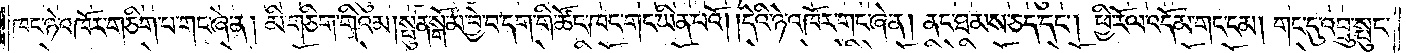ཁང་ཉེ་འཁོར་གཅིག་པ་གང་ཞེ་ན། མི་གཅིག་གིའམ། སྤུན་སྒོ་མ་བྱེ་བ་དག་གི་ཚོང་ཁང་གང་ཡིན་པའོ། །དེའི་ཉེ་འཁོར་གང་ཞེ་ན། ནང་ཐམས་ཅད་དང༌། ཕྱི་རོལ་འདོམ་གང་ངམ། གང་དུ་འབྲུ་སྤུང་
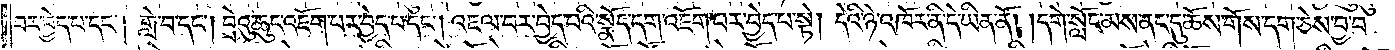བར་བྱེད་པ་དང༌། གླེ་བ་དང༌། བྲེའུ་ཆུང་འཇོག་པར་བྱེད་པ་དང༌། འཇལ་བར་བྱེད་པའི་སྣོད་དག་འཇོག་པར་བྱེད་པ་སྟེ། དེའི་ཉེ་འཁོར་ནི་དེ་ཡིན་ནོ། །དགེ་སློང་མས་ནང་དུ་ཆོས་གོས་དག་ཅེས་བྱ་བ་
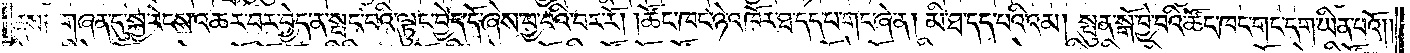ནས༑ གཞན་དུ་སྐྱ་རེངས་འཆར་བར་བྱེད་ན་སྤང་བའི་ལྟུང་བྱེད་དོ་ཞེས་བྱ་བའི་བར་རོ། །ཚོང་ཁང་ཉེ་འཁོར་ཐ་དད་པ་གང་ཞེ་ན། མི་ཐ་དད་པའི་འམ། སྤུན་སྒོ་བྱེ་བའི་ཚོང་ཁང་གང་དག་ཡིན་པའོ། །
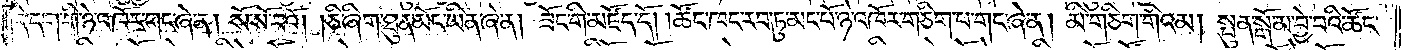དེ་དག་གི་ཉེ་འཁོར་གང་ཞེ་ན། སོ་སོ་བའོ། །ཅི་ཞིག་ཐུན་མོང་ཡིན་ཞེ་ན། ཟོང་གི་མཛོད་དོ། །ཚོང་ཁང་རབ་ཏུ་མང་པོ་ཉེ་འཁོར་གཅིག་པ་གང་ཞེ་ན། མི་གཅིག་གིའམ། སྤུན་སྒོ་མ་བྱེ་བའི་ཚོང་
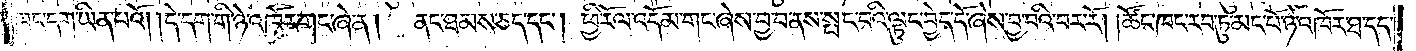ཁང་དག་ཡིན་པའོ། །དེ་དག་གི་ཉེ་འཁོར་གང་ཞེ་ན། ནང་ཐམས་ཅད་དང༌། ཕྱི་རོལ་འདོམ་གང་ཞེས་བྱ་བ་ནས་སྤང་བའི་ལྟུང་བྱེད་དོ་ཞེས་བྱ་བའི་བར་རོ། །ཚོང་ཁང་རབ་ཏུ་མང་པོ་ཉེ་འཁོར་ཐ་དད་
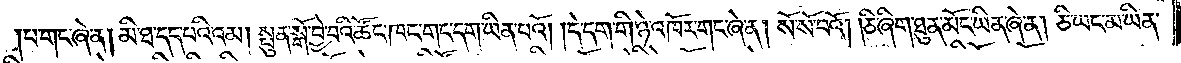པ་གང་ཞེ་ན། མི་ཐ་དད་པའི་འམ། སྤུན་སྒོ་བྱེ་བའི་ཚོང་ཁང་གང་དག་ཡིན་པའོ། །དེ་དག་གི་ཉེ་འཁོར་གང་ཞེ་ན། སོ་སོ་བའོ། །ཅི་ཞིག་ཐུན་མོང་ཡིན་ཞེ་ན། ཅི་ཡང་མ་ཡིན་
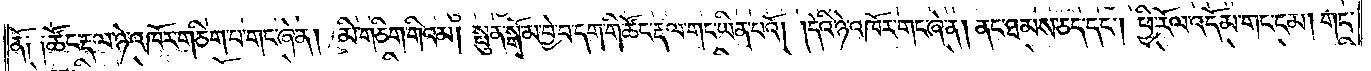ནོ༑ ༑ཚོང་རྡལ་ཉེ་འཁོར་གཅིག་པ་གང་ཞེ་ན། མི་གཅིག་གིའམ། སྤུན་སྒོ་མ་བྱེ་བ་དག་གི་ཚོང་རྡལ་གང་ཡིན་པའོ། །དེའི་ཉེ་འཁོར་གང་ཞེ་ན། ནང་ཐམས་ཅད་དང༌། ཕྱི་རོལ་འདོམ་གང་ངམ། གང་
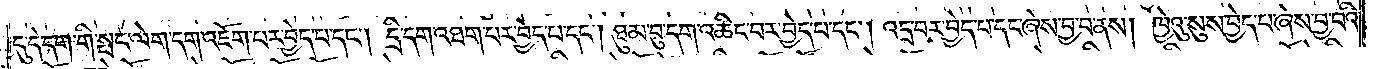དུ་དེ་དག་གི་སྤང་ལེག་དག་འཇོག་པར་བྱེད་པ་དང༌། དྲི་དག་འཐག་བར་བྱེད་པ་དང༌། ཐུམ་བུ་དག་འཆིང་བར་བྱེད་པ་དང༌། འདྲ་བར་བྱེད་པ་དང་ཞེས་བྱ་བ་ནས། ཁྱེའུ་སུས་བྱེད་པ་ཞེས་བྱ་བའི་
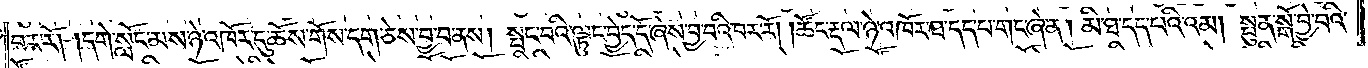བར་རོ། །དགེ་སློང་མས་ཉེ་འཁོར་དུ་ཆོས་གོས་དག་ཅེས་བྱ་བ་ནས། སྤང་བའི་ལྟུང་བྱེད་དོ་ཞེས་བྱ་བའི་བར་རོ། །ཚོང་རྡལ་ཉེ་འཁོར་ཐ་དད་པ་གང་ཞེ་ན། མི་ཐ་དད་པའི་འམ། སྤུན་སྒོ་བྱེ་བའི་
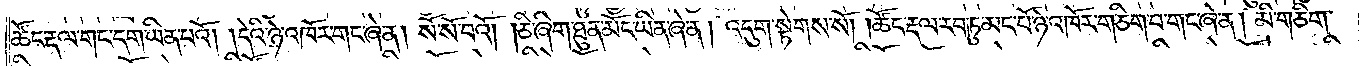ཚོང་རྡལ་གང་དག་ཡིན་པའོ། །དེའི་ཉེ་འཁོར་གང་ཞེ་ན། སོ་སོ་བའོ། །ཅི་ཞིག་ཐུན་མོང་ཡིན་ཞེ་ན། འདུག་སྟེགས་སོ། །ཚོང་རྡལ་རབ་ཏུ་མང་པོ་ཉེ་འཁོར་གཅིག་པ་གང་ཞེ་ན། མི་གཅིག་
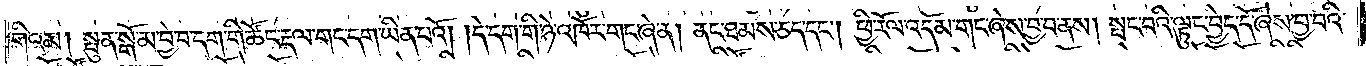གིའམ། སྤུན་སྒོ་མ་བྱེ་བ་དག་གི་ཚོང་རྡལ་གང་དག་ཡིན་པའོ། །དེ་དག་གི་ཉེ་འཁོར་གང་ཞེ་ན། ནང་ཐམས་ཅད་དང༌། ཕྱི་རོལ་འདོམ་གང་ཞེས་བྱ་བ་ནས། སྤང་བའི་ལྟུང་བྱེད་དོ་ཞེས་བྱ་བའི་
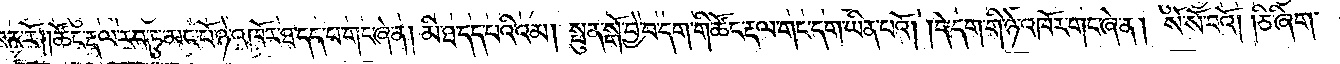བར་རོ། །ཚོང་རྡལ་རབ་ཏུ་མང་པོ་ཉེ་འཁོར་ཐ་དད་པ་གང་ཞེ་ན། མི་ཐ་དད་པའི་འམ། སྤུན་སྒོ་བྱེ་བ་དག་གི་ཚོང་རྡལ་གང་དག་ཡིན་པའོ། །དེ་དག་གི་ཉེ་འཁོར་གང་ཞེ་ན། སོ་སོ་བའོ། །ཅི་ཞིག་
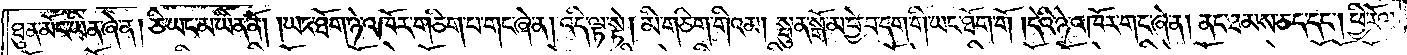ཐུན་མོང་ཡིན་ཞེ་ན། ཅི་ཡང་མ་ཡིན་ནོ། །ཡང་ཐོག་ཉེ་འཁོར་གཅིག་པ་གང་ཞེ་ན། འདི་ལྟ་སྟེ། མི་གཅིག་གིའམ། སྤུན་སྒོ་མ་བྱེ་བ་དག་གི་ཡང་ཐོག་གོ །དེའི་ཉེ་འཁོར་གང་ཞེ་ན། ནང་ཐམས་ཅད་དང༌། ཕྱི་རོལ་
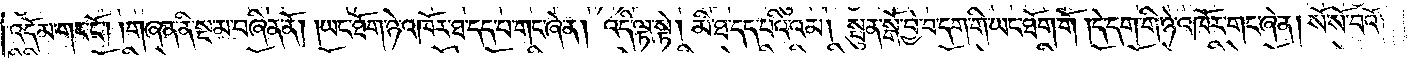འདོམ་གང་ངོ༌། །གཞན་ནི་སྔ་མ་བཞིན་ནོ། །ཡང་ཐོག་ཉེ་འཁོར་ཐ་དད་པ་གང་ཞེ་ན། འདི་ལྟ་སྟེ། མི་ཐ་དད་པའི་འམ། སྤུན་སྒོ་བྱེ་བ་དག་གི་ཡང་ཐོག་གོ །དེ་དག་གི་ཉེ་འཁོར་གང་ཞེ་ན། སོ་སོ་པའོ། །
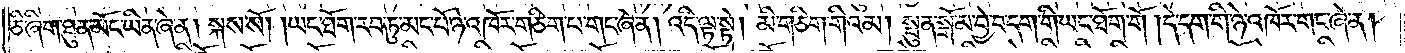ཅི་ཞིག་ཐུན་མོང་ཡིན་ཞེ་ན། སྐས་སོ། །ཡང་ཐོག་རབ་ཏུ་མང་པོ་ཉེ་འཁོར་གཅིག་པ་གང་ཞེ་ན། འདི་ལྟ་སྟེ། མི་གཅིག་གིའམ། སྤུན་སྒོ་མ་བྱེ་བ་དག་གི་ཡང་ཐོག་གོ །དེ་དག་གི་ཉེ་འཁོར་གང་ཞེ་ན།
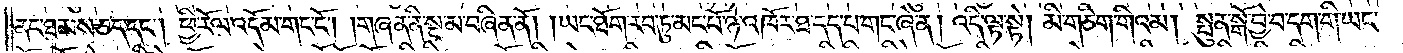ནང་ཐམས་ཅད་དང༌། ཕྱི་རོལ་འདོམ་གང་ངོ༌། །གཞན་ནི་སྔ་མ་བཞིན་ནོ། །ཡང་ཐོག་རབ་ཏུ་མང་པོ་ཉེ་འཁོར་ཐ་དད་པ་གང་ཞེ་ན། འདི་ལྟ་སྟེ། མི་གཅིག་གིའམ། སྤུན་སྒོ་བྱེ་བ་དག་གི་ཡང་
